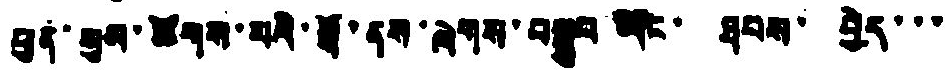ཕུན་སུམ་ཚོགས་པའི་སྒོ་ནས་ལེགས་བསྒྲུབ ཡོང་ ཐབས་ བྱེད་་་
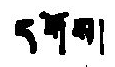དགོས།
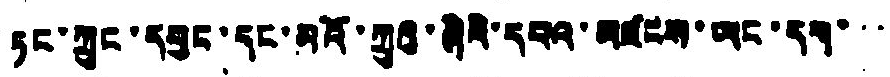ཏང་ཀྲུང་དབྱང་དང་མའོ་ཀྲུའུ་ཞིའི་དཔའ་མཛངས་ཡང་དག་་་
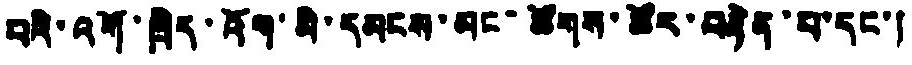པའི་འགོ་ཁྲིད་འོག་མི་དམངས་མང་ཚོགས་ཚོར་བརྟེན་པ་དང་།
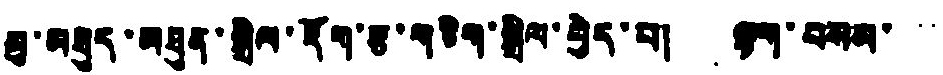མུ་མཐུད་མཐུན་སྒྲིལ་དོག་རྩ་གཅིག་སྒྲིལ་བྱེད་པ། ལྟག་བསམ་་་
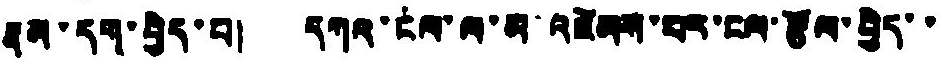རྣམ་དག་བྱེད་པ། དཀའ་ངལ་ལ་མ་འཛེམས་པར་ངལ་རྩོལ་བྱེད་་
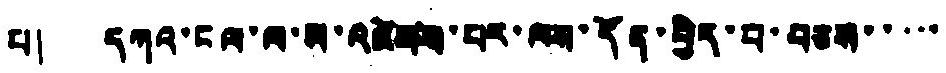པ། དཀའ་ངལ་ལ་མ་འཛེམས་པར་ལས་དོན་བྱེད་བ་བཅས་་་་་
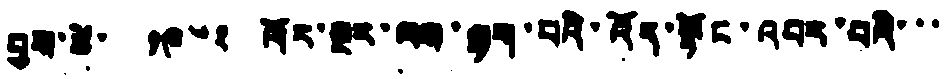བྱས་ཚེ་ ༡༩༦༢ ལོར་སྔར་ལས་ལྷག་པའི་འོད་སྟོང་འབར་བའི་་་
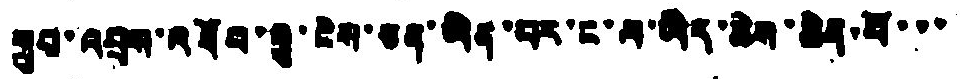གྲུབ་འབྲས་འཐོབ་རྒྱུ་ངེས་ཅན་ཡིན་པར་ང་ལ་ཡིད་ཆེས་ཆེན་པོ་་་
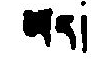ཡོད།
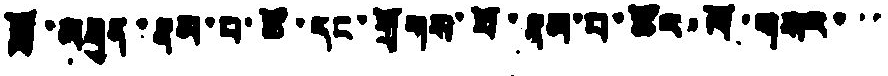བློ་མཐུན་རྣམ་པ་ཚོ་དང་གྲོགས་པོ་རྣམ་པ་ཚོང་ལོ་གསར་་་
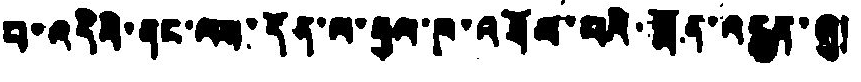བ་འདིའི་ནང་ལས་དོན་ལ་རྒྱལ་ཁ་འཐོབ་པའི་སྨོན་འདུན་ཞུ།
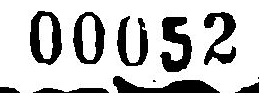00052
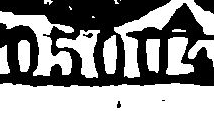05004
